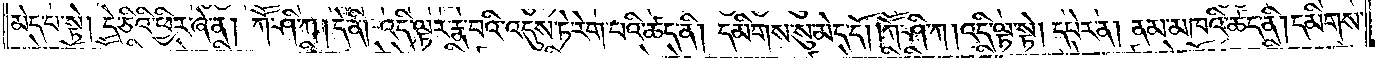མེད་པ་སྟེ། དེ་ཅིའི་ཕྱིར་ཞེ་ན། ཀཽ་ཤི་ཀ །དེ་ནི། འདི་ལྟར་རྣ་བའི་འདུས་ཏེ་རེག་པའི་ཚད་ནི། དམིགས་སུ་མེད་དོ། །ཀཽ་ཤི་ཀ། འདི་ལྟ་སྟེ། དཔེར་ན། ནམ་མཁའི་ཚད་ནི། དམིགས་
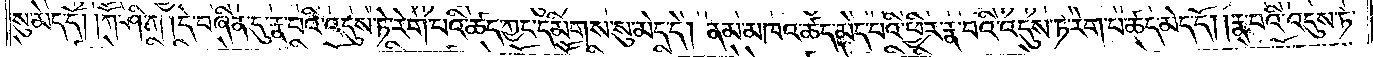སུ་མེད་དོ། །ཀཽ་ཤི་ཀ། དེ་བཞིན་དུ་རྣ་བའི་འདུས་ཏེ་རེག་པའི་ཚད་ཀྱང་དམིགས་སུ་མེད་དེ། ནམ་མཁའ་ཚད་མེད་པའི་ཕྱིར་རྣ་བའི་འདུས་ཏེ་རེག་པ་ཚད་མེད་དོ། །རྣ་བའི་འདུས་ཏེ་
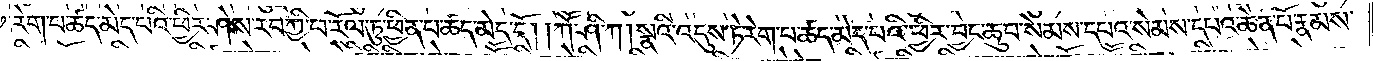རེག་པ་ཚད་མེད་པའི་ཕྱིར་ཤེས་རབ་ཀྱི་ཕ་རོལ་ཏུ་ཕྱིན་པ་ཚད་མེད་དོ། །ཀཽ་ཤི་ཀ། སྣའི་འདུས་ཏེ་རེག་པ་ཚད་མེད་པའི་ཕྱིར་བྱང་ཆུབ་སེམས་དཔའ་སེམས་དཔའ་ཆེན་པོ་རྣམས་
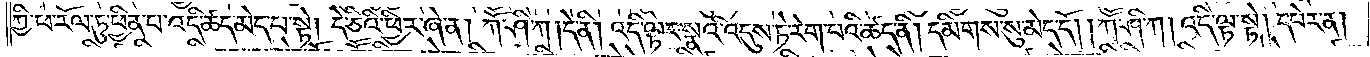ཀྱི་ཕ་རོལ་ཏུ་ཕྱིན་པ་འདི་ཚད་མེད་པ་སྟེ། དེ་ཅིའི་ཕྱིར་ཞེ་ན། ཀཽ་ཤི་ཀ །དེ་ནི། འདི་ལྟར་སྣའི་འདུས་ཏེ་རེག་པའི་ཚད་ནི། དམིགས་སུ་མེད་དོ། །ཀཽ་ཤི་ཀ། འདི་ལྟ་སྟེ། དཔེར་ན།
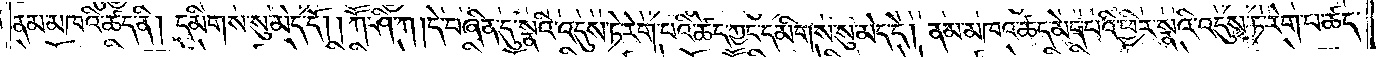ནམ་མཁའི་ཚད་ནི། དམིགས་སུ་མེད་དོ། །ཀཽ་ཤི་ཀ །དེ་བཞིན་དུ་སྣའི་འདུས་ཏེ་རེག་པའི་ཚད་ཀྱང་དམིགས་སུ་མེད་དེ། ནམ་མཁའ་ཚད་མེད་པའི་ཕྱིར་སྣའི་འདུས་ཏེ་རེག་པ་ཚད་
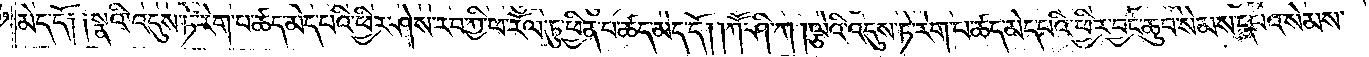མེད་དོ། །སྣའི་འདུས་ཏེ་རེག་པ་ཚད་མེད་པའི་ཕྱིར་ཤེས་རབ་ཀྱི་ཕ་རོལ་ཏུ་ཕྱིན་པ་ཚད་མེད་དོ། །ཀཽ་ཤི་ཀ །ལྕེའི་འདུས་ཏེ་རེག་པ་ཚད་མེད་པའི་ཕྱིར་བྱང་ཆུབ་སེམས་དཔའ་སེམས་
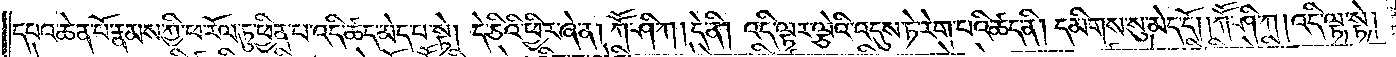དཔའ་ཆེན་པོ་རྣམས་ཀྱི་ཕ་རོལ་ཏུ་ཕྱིན་པ་འདི་ཚད་མེད་པ་སྟེ། དེ་ཅིའི་ཕྱིར་ཞེ་ན། ཀཽ་ཤི་ཀ །དེ་ནི། འདི་ལྟར་ལྕེའི་འདུས་ཏེ་རེག་པའི་ཚད་ནི། དམིགས་སུ་མེད་དོ། །ཀཽ་ཤི་ཀ། འདི་ལྟ་སྟེ།
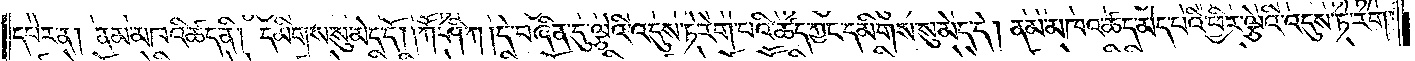དཔེར་ན། ནམ་མཁའི་ཚད་ནི། དམིགས་སུ་མེད་དོ། །ཀཽ་ཤི་ཀ། དེ་བཞིན་དུ་ལྕེའི་འདུས་ཏེ་རེག་པའི་ཚད་ཀྱང་དམིགས་སུ་མེད་དེ། ནམ་མཁའ་ཚད་མེད་པའི་ཕྱིར་ལྕེའི་འདུས་ཏེ་རེག་
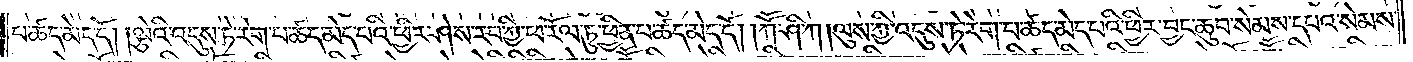པ་ཚད་མེད་དོ། །ལྕེའི་འདུས་ཏེ་རེག་པ་ཚད་མེད་པའི་ཕྱིར་ཤེས་རབ་ཀྱི་ཕ་རོལ་ཏུ་ཕྱིན་པ་ཚད་མེད་དོ། །ཀཽ་ཤི་ཀ། ལུས་ཀྱི་འདུས་ཏེ་རེག་པ་ཚད་མེད་པའི་ཕྱིར་བྱང་ཆུབ་སེམས་དཔའ་སེམས་
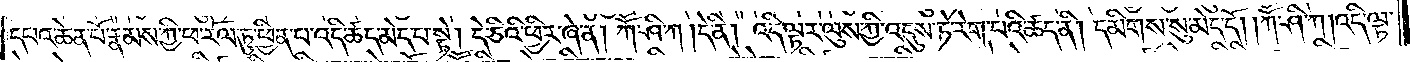དཔའ་ཆེན་པོ་རྣམས་ཀྱི་ཕ་རོལ་ཏུ་ཕྱིན་པ་འདི་ཚད་མེད་པ་སྟེ། དེ་ཅིའི་ཕྱིར་ཞེ་ན། ཀཽ་ཤི་ཀ །དེ་ནི། འདི་ལྟར་ལུས་ཀྱི་འདུས་ཏེ་རེག་པའི་ཚད་ནི། དམིགས་སུ་མེད་དོ། །ཀཽ་ཤི་ཀ། འདི་ལྟ་
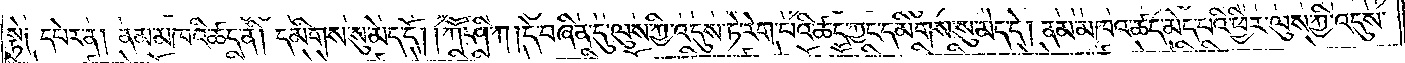སྟེ༑ དཔེར་ན། ནམ་མཁའི་ཚད་ནི། དམིགས་སུ་མེད་དོ། །ཀཽ་ཤི་ཀ། དེ་བཞིན་དུ་ལུས་ཀྱི་འདུས་ཏེ་རེག་པའི་ཚད་ཀྱང་དམིགས་སུ་མེད་དེ། ནམ་མཁའ་ཚད་མེད་པའི་ཕྱིར་ལུས་ཀྱི་འདུས་
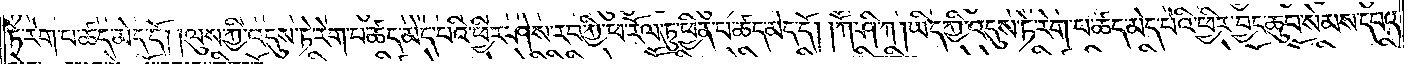ཏེ་རེག་པ་ཚད་མེད་དོ། །ལུས་ཀྱི་འདུས་ཏེ་རེག་པ་ཚད་མེད་པའི་ཕྱིར་ཤེས་རབ་ཀྱི་ཕ་རོལ་ཏུ་ཕྱིན་པ་ཚད་མེད་དོ། །ཀཽ་ཤི་ཀ། ཡིད་ཀྱི་འདུས་ཏེ་རེག་པ་ཚད་མེད་པའི་ཕྱིར་བྱང་ཆུབ་སེམས་དཔའ་
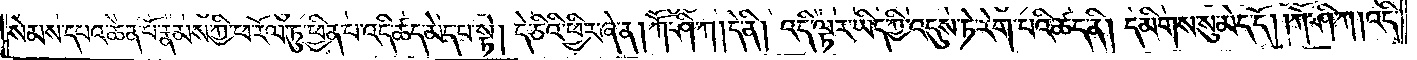སེམས་དཔའ་ཆེན་པོ་རྣམས་ཀྱི་ཕ་རོལ་ཏུ་ཕྱིན་པ་འདི་ཚད་མེད་པ་སྟེ། དེ་ཅིའི་ཕྱིར་ཞེ་ན། ཀཽ་ཤི་ཀ །དེ་ནི། འདི་ལྟར་ཡིད་ཀྱི་འདུས་ཏེ་རེག་པའི་ཚད་ནི། དམིགས་སུ་མེད་དོ། །ཀཽ་ཤི་ཀ། འདི་
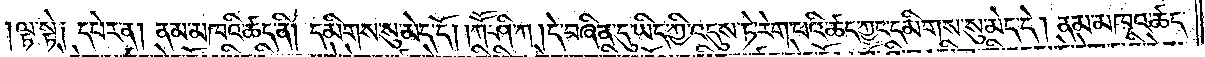ལྟ་སྟེ། དཔེར་ན། ནམ་མཁའི་ཚད་ནི། དམིགས་སུ་མེད་དོ། །ཀཽ་ཤི་ཀ །དེ་བཞིན་དུ་ཡིད་ཀྱི་འདུས་ཏེ་རེག་པའི་ཚད་ཀྱང་དམིགས་སུ་མེད་དེ། ནམ་མཁའ་ཚད་
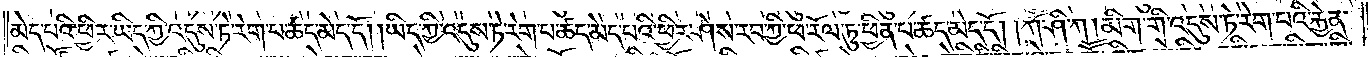མེད་པའི་ཕྱིར་ཡིད་ཀྱི་འདུས་ཏེ་རེག་པ་ཚད་མེད་དོ། །ཡིད་ཀྱི་འདུས་ཏེ་རེག་པ་ཚད་མེད་པའི་ཕྱིར་ཤེས་རབ་ཀྱི་ཕ་རོལ་ཏུ་ཕྱིན་པ་ཚད་མེད་དོ། །ཀཽ་ཤི་ཀ། མིག་མི་འདུས་ཏེ་རེག་པའི་རྐྱེན་
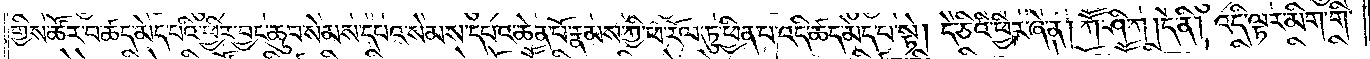གྱིས་ཚོར་བ་ཚད་མེད་པའི་ཕྱིར་བྱང་ཆུབ་སེམས་དཔའ་སེམས་དཔའ་ཆེན་པོ་རྣམས་ཀྱི་ཕ་རོལ་ཏུ་ཕྱིན་པ་འདི་ཚད་མེད་པ་སྟེ། དེ་ཅིའི་ཕྱིར་ཞེ་ན། ཀཽ་ཤི་ཀ །དེ་ནི། འདི་ལྟར་མིག་གི་
